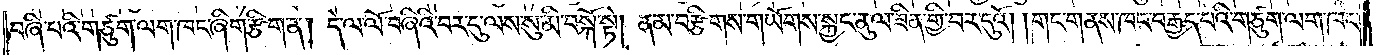བཞི་པའི་གཙུག་ལག་ཁང་ཞིག་རྩིག་ན། དེ་ལ་ལོ་བཞིའི་བར་དུ་ལས་སུ་མི་བསྐོ་སྟེ། ནམ་བརྩིགས་གཡོགས་སྐྱང་ནུལ་ཟིན་གྱི་བར་དུའོ། །གང་གནས་ཁང་བརྒྱད་པའི་གཙུག་ལག་ཁང་
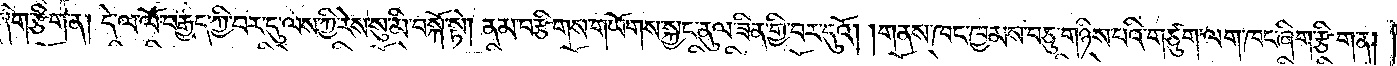ཞིག་རྩིག་ན། དེ་ལ་ལོ་བརྒྱད་ཀྱི་བར་དུ་ལས་ཀྱི་རེས་སུ་མི་བསྐོ་སྟེ། ནམ་བརྩིགས་གཡོགས་སྐྱང་ནུལ་ཟིན་གྱི་བར་དུའོ། །གནས་ཁང་ཁྱམས་བཅུ་གཉིས་པའི་གཙུག་ལག་ཁང་ཞིག་རྩིག་ན།
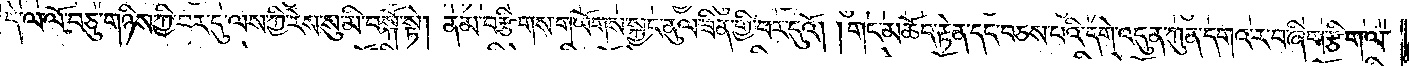དེ་ལ་ལོ་བཅུ་གཉིས་ཀྱི་བར་དུ་ལས་ཀྱི་རེས་སུ་མི་བསྐོ་སྟེ། ནམ་བརྩིགས་གཡོགས་སྐྱང་ནུལ་ཟིན་གྱི་བར་དུའོ། །གང་མཆོད་རྟེན་དང་བཅས་པའི་དགེ་འདུན་ཀུན་དགའ་ར་བ་ཞིག་རྩིག་ལ་
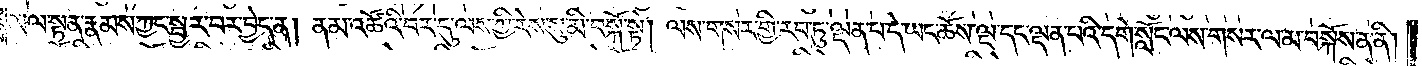མལ་སྟན་རྣམས་ཀྱང་སྦྱར་བར་བྱེད་ན། ནམ་འཚོའི་བར་དུ་ལས་ཀྱི་རེས་སུ་མི་བསྐོ་སྟེ། ལས་གསར་གྱི་རབ་ཏུ་ལྡན་པ་དེ་ཡང་ཆོས་ལྔ་དང་ལྡན་པའི་དགེ་སློང་ལས་གསར་ལ་མ་བསྐོས་ན་ནི།
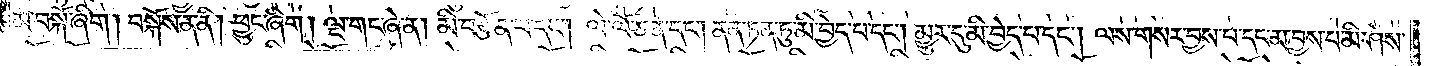མ་བསྐོ་ཞིག། བསྐོས་ན་ནི། ཕྱུང་ཞིག། ལྔ་གང་ཞེ་ན། མི་བརྩོན་པ་དང༌། ལེ་ལོ་ཅན་དང༌། ནན་ཏན་ཏུ་མི་བྱེད་པ་དང༌། མྱུར་དུ་མི་བྱེད་པ་དང༌། ལས་གསར་བྱས་པ་དང་མ་བྱས་པ་མི་ཤེས་
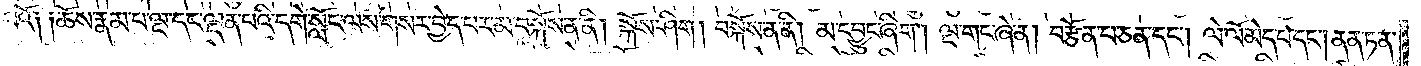པའོ༑ ༑ཆོས་རྣམ་པ་ལྔ་དང་ལྡན་པའི་དགེ་སློང་ལས་གསར་བྱེད་པར་མ་བསྐོས་ན་ནི། སྐོས་ཤིག། བསྐོས་ན་ནི། མ་དབྱུང་ཞིག། ལྔ་གང་ཞེ་ན། བརྩོན་པ་ཅན་དང༌། ལེ་ལོ་མེད་པ་དང༌། ནན་ཏན་
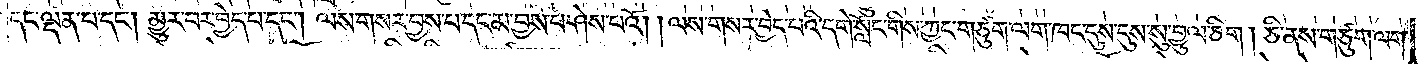དང་ལྡན་པ་དང༌། མྱུར་བར་བྱེད་པ་དང༌། ལས་གསར་བྱས་པ་དང་མ་བྱས་པ་ཤེས་པའོ། །ལས་གསར་བྱེད་པའི་དགེ་སློང་གིས་ཀྱང་གཙུག་ལག་ཁང་དུས་དུས་སུ་བྱུལ་ཅིག། ཅི་ནས་གཙུག་ལག་
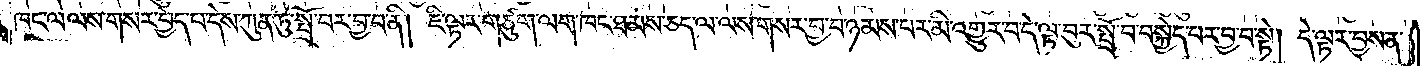ཁང་ལ་ལས་གསར་བྱེད་པ་དེས་ཀུན་ཏུ་སྤྲོ་བར་བྱ་བ་ནི། ཇི་ལྟར་གཙུག་ལག་ཁང་ཐམས་ཅད་ལ་ལས་གསར་བྱ་བ་ཉམས་པར་མི་འགྱུར་བ་དེ་ལྟ་བུར་སྤྲོ་བ་བསྐྱེད་པར་བྱ་བ་སྟེ། དེ་ལྟར་བྱས་ན་
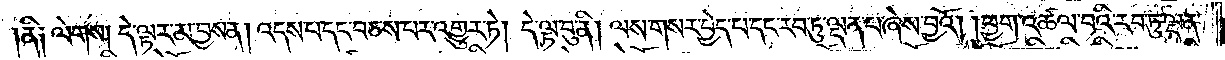ནི༑ ལེགས། དེ་ལྟར་མ་བྱས་ན། འདས་པ་དང་བཅས་པར་འགྱུར་ཏེ། དེ་ལྟ་བུ་ནི། ལས་གསར་བྱེད་པ་དང་རབ་ཏུ་ལྡན་པ་ཞེས་བྱའོ། །ཕྱག་འཚལ་བའི་རབ་ཏུ་ལྡན་
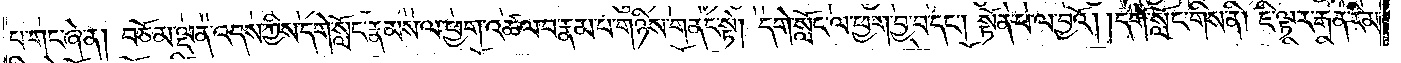པ་གང་ཞེ་ན། བཅོམ་ལྡན་འདས་ཀྱིས་དགེ་སློང་རྣམས་ལ་ཕྱག་འཚལ་བ་རྣམ་པ་གཉིས་གནང་སྟེ། དགེ་སློང་ལ་ཕྱག་བྱ་བ་དང༌། སྟོན་པ་ལ་བྱའོ། །དགེ་སློང་གིས་ནི། ཇི་ལྟར་རྒན་རིམ་
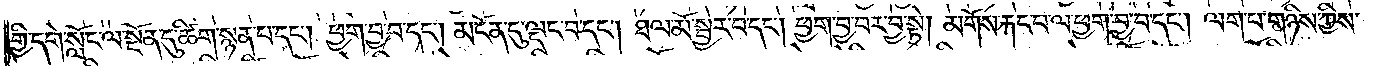གྱི་དགེ་སློང་ལ་སྔོན་དུ་ཚིག་སྙན་པ་དང༌། ཕྱག་བྱ་བ་དང༌། མངོན་དུ་ལྡང་བ་དང༌། ཐལ་མོ་སྦྱར་བ་དང༌། ཕྱག་བྱ་བར་བྱ་སྟེ། མགོས་རྐང་པ་ལ་ཕྱག་བྱ་བ་དང༌། ལག་པ་གཉིས་ཀྱིས་
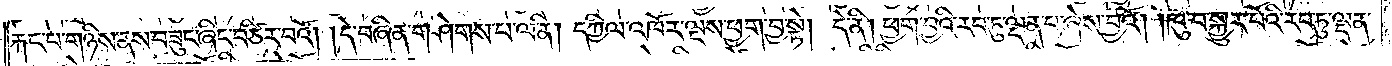རྐང་པ་གཉིས་ནས་བཟུང་ཞིང་བཙིར་བའོ། །དེ་བཞིན་གཤེགས་པ་ལ་ནི། དཀྱིལ་འཁོར་ལྔས་ཕྱག་བྱ་སྟེ། དེ་ནི། ཕྱག་བྱའི་རབ་ཏུ་ལྡན་པ་ཞེས་བྱའོ། །ཁུ་བ་སྐྱུར་པོའི་རབ་ཏུ་ལྡན་
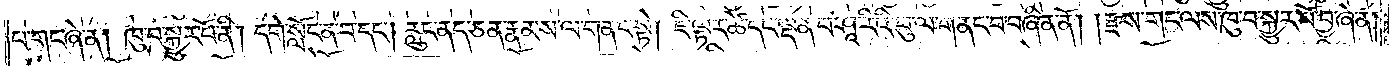པ་གང་ཞེ་ན། ཁུ་བ་སྐྱུར་པོ་ནི། དགེ་སློང་ན་བ་དང༌། རླུང་ནད་ཅན་རྣམས་ལ་གནང་སྟེ། ཇི་ལྟར་ཚེ་དང་ལྡན་པ་ཤཱ་རིའི་བུ་ལ་གནང་བ་བཞིན་ནོ། །རྫས་གང་ལས་ཁུ་བ་སྐྱུར་པོ་བྱ་ཞེ་ན།
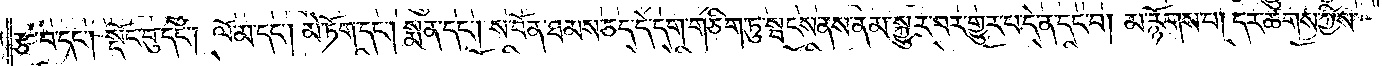རྩ་བ་དང༌། སྡོང་བུ་དང༌། ལོ་མ་དང༌། མེ་ཏོག་དང༌། སྨན་དང༌། ས་བོན་ཐམས་ཅད་དེ་དག་གཅིག་ཏུ་སྤངས་ནས་ནམ་སྐྱུར་བར་གྱུར་པ་དེ་ན་དང་བ། མ་རྙོགས་པ། དར་ཚོགས་ཀྱིས་
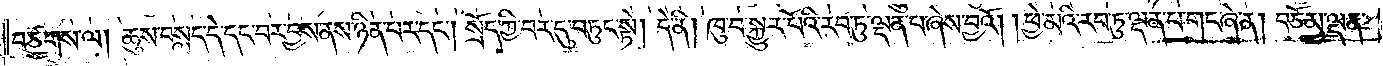བཙགས་ལ། ཆུས་བསླད་དེ་དང་བར་བྱས་ནས་ཉིན་པར་དང༌། སྲོད་ཀྱི་བར་དུ་བཏུང་སྟེ། དེ་ནི། ཁུ་བ་སྐྱུར་པོའི་རབ་ཏུ་ལྡན་པ་ཞེས་བྱའོ། །ཕྱེ་མའི་རབ་ཏུ་ལྡན་པ་གང་ཞེ་ན། བཅོམ་ལྡན་
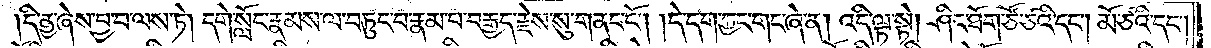དི་ནྱ་ཞེས་བྱ་བ་ལས་ཏེ། དགེ་སློང་རྣམས་ལ་བཏུང་བ་རྣམ་པ་བརྒྱད་རྗེས་སུ་གནང་ངོ༌། །དེ་དག་ཀྱང་གང་ཞེ་ན། འདི་ལྟ་སྟེ། ཤིང་ཐོག་ཙོ་ཙའི་དང༌། མོ་ཙའི་དང༌།
